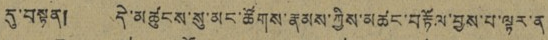དུ་བསྟན། དེ་མཚུངས་སུ་མང་ཚོགས་རྣམས་ཀྱིས་མཚང་བརྟོལ་བྱས་པ་ལྟར་ན
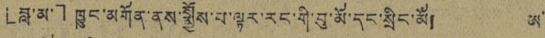「བླ་མ་」ཁྱུང་མགོན་ནས་སྨྱོས་པ་ལྟར་རང་གི་བུ་མོ་དང་སྲིང་མོ། ཨ
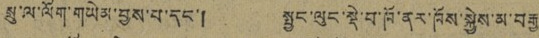སྲུ་ལ་ལོག་གཡེམ་བྱས་པ་དང་། སྤྱང་ལུང་སྡེ་བ་ཁོ་ནར་ཁོས་སྐྱེས་མ་བརྒྱ་
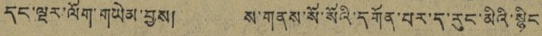དང་ལྔར་ལོག་གཡེམ་བྱས། ས་གནས་སོ་སོའི་དགོན་པར་ད་རུང་མིའི་སྙིང་
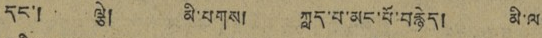དང་། ལྕེ། མི་བགས། ཀླད་པ་མང་པོ་བརྙེད། མི་ལ་
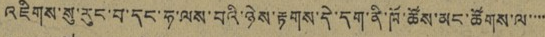འཇིགས་སུ་རུང་བ་དང་ཧ་ལས་པའི་ཉེས་རྟགས་དེ་དག་ནི་ཁོ་ཚོས་མང་ཚོགས་ལ་་་་
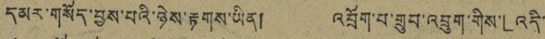དམར་གསོད་བྱས་པའི་ཉེས་རྟགས་ཡིན། འབྲོག་པ་གྲུབ་འབྲུག་གིས་「འདི་
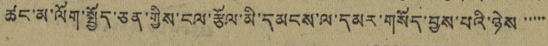ཚང་མ་ལོག་སྤྱོད་ཅན་གྱིས་ངལ་རྩོལ་མི་དམངས་ལ་དམར་གསོད་བྱས་པའི་ཉེས་་་་་
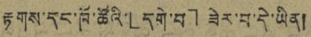རྟགས་དང་ཁོ་ཚོའི་「དགེ་བ」ཟེར་བ་དེ་ཡིན།
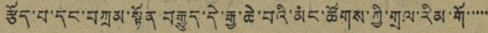རྩོད་པ་དང་བཀྲམ་སྟོན བརྒྱུད་དེ་རྒྱུ་ཆེ་བའི་མང་ཚོགས་ཀྱི་གྲལ་རིམ་གོ་་་་་་
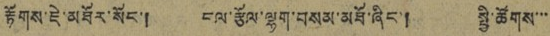རྟོགས་ཇེ་མཐོར་སོང་། ངལ་རྩོལ་ལྷག་བསམ་མཐོ་ཞིང་། སྤྱི་ཚོགས་་་
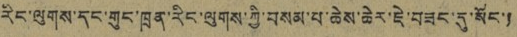རིང་ལུགས་དང་གུང་ཁྲན་རིང་ལུགས་ཀྱི་བསམ་པ་ཆེས་ཆེར་ཇེ་བཟང་དུ་སོང་།
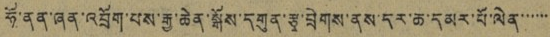ཧོ་ནན་ཞན་འབྲོག་པས་རྒྱ་ཆེན་སྒོས་དགུན་རྩྭ་བྲེགས་ནས་དར་ཆ་དམར་པོ་ལེན་་་་་་
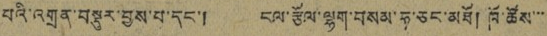པའི་འགྲན་བསྡུར་བྱས་པ་དང་། ངལ་རྩོལ་ལྷག་བསམ་ཧ་ཅང་མཐོ། ཁོ་ཚོས་་་
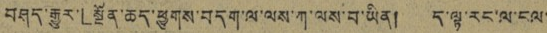བཤད་རྒྱུར་「སྔོན་ཆད་ཕྱུགས་བདག་ལ་ལས་ཀ་ལས་བ་ཡིན། ད་ལྟ་རང་ལ་ངལ་
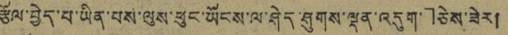རྩོལ་བྱེད་པ་ཡིན་པས་ལུས་ཕུང་ཡོངས་ལ་ཤེད་ཤུགས་ལྡན་འདུག་」ཅེས་ཟེར།
